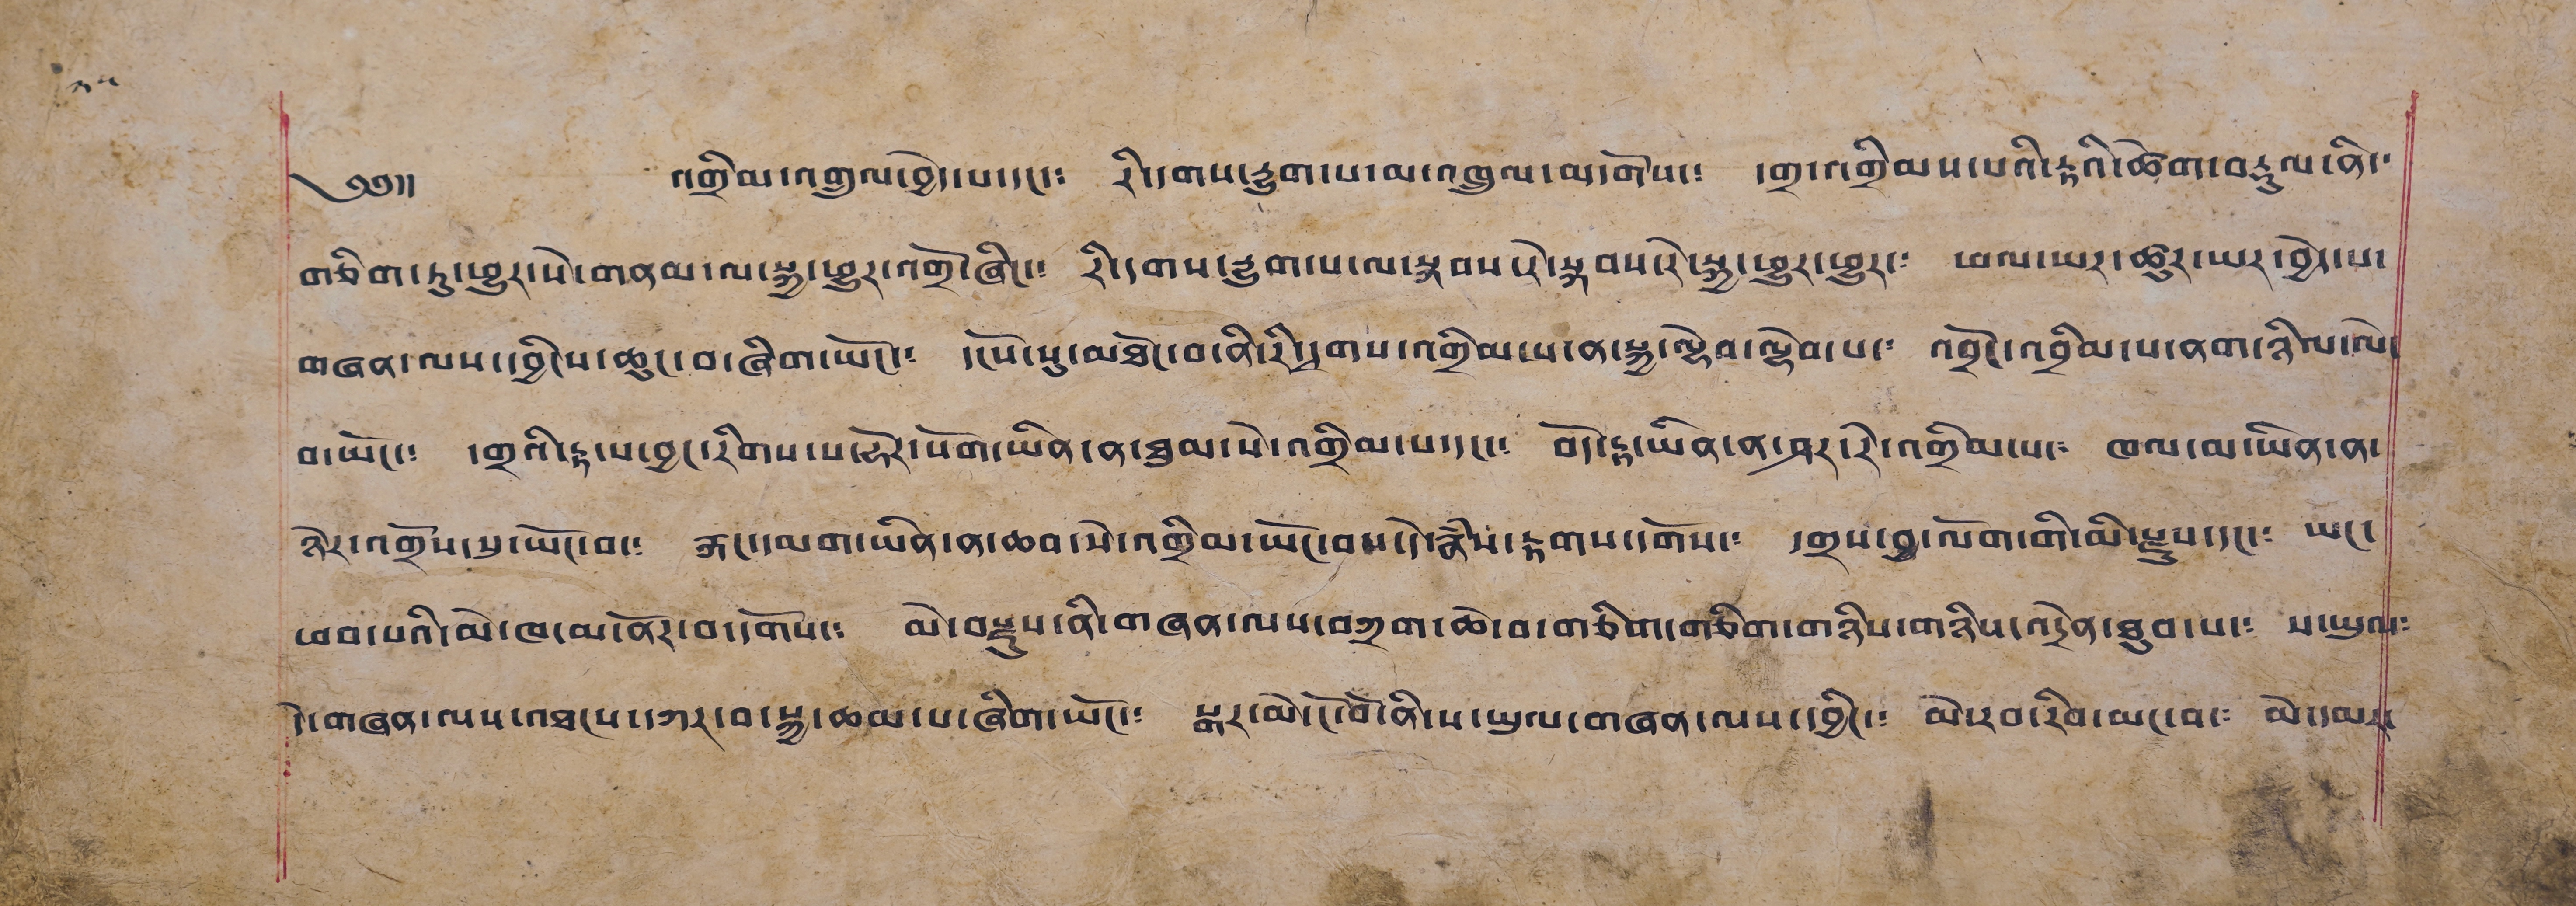༢༥
༄༅།། འགྲིམ་འགྲུལ་བྱེད་པ་དང་༴ རི་དགས་རྒྱུག་པ་མ་འཁྲུལ་མདོགས་༴ དགྲ་འགྲིམས་པའི་རྟའི་ཚེག་བརྟུལ་ནི་
གཅིག་ཏུ་ཕྱུར་སེ་གནམ་ལ་སྐྱ་ཕྱུར་འགྲོ་ཞིང་༴ རི་དགས་རྒྱུག་པ་ལ་སྐབས་རེ་སྐབས་རེ་སྐྱ་ཕྱུར་ཕྱུར་༴ ཕལ་ཡར་ཚུར་ཡར་བྱེད་པ་
གཞན་ལས་དབྱིངས་ཆུང་བ་ཞིག་ཡོང་༴ དངོས་སུ་མཐོང་བ་ནི་རི་དྭགས་འགྲིམ་པ་ན་སྐྱ་ལྷེབ་ལྷེབ་པ་༴ འབྲོང་འབྲིམ་པ་ནག་ཉིལ་ལེ་
བ་ཡོང་༴ དགྲའི་རྟ་པ་བྱང་རིགས་པ་ཧོར་སོག་ཡིན་ན་ཐུམ་སེ་འགྲིམ་པ་དང་༴ བོད་རྟ་ཡིན་ན་ཤར་རེ་འགྲིམ་པ་༴ ཁལ་མ་ཡིན་ན་
ཉེར་འགྲོས་སུ་ཡོང་བ་༴ རྐང་དམག་ཡིན་ན་ཆབ་སེ་འགྲིམ་ཡོང་བས་དེ་རྣཾས་རྟགས་དགོས་༴ དགྲས་བྱ་ལོག་གི་མི་རྫུས་དང་༴ ཡང་
ཕབ་པའི་མེ་ཁ་མ་ནོར་བ་དགོས་༴ མེ་བརྫུས་ནི་གཞན་ལས་བཀྲག་ཆེ་བ་གཅིག་གཅིག་གཉིས་གཉིས་འདྲེན་ཐུབ་པ་༴ ས་ཡུལ༴
དེ་གཞན་ལས་འཐངས་དཀར་བ་སྐྱ་ཆམ་པ་ཞིག་ཡོང་༴ སྒར་མེ་ངོ་བོ་ནི་ས་ཡུལ་གཞན་ལས་བྱིང་༴ མེ་རབ་རིབ་མང་བ་༴ མེ་དམར་
